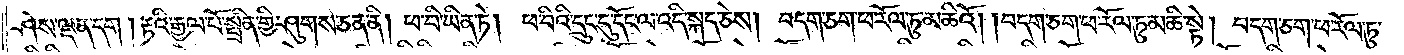ཤེས་ལྡན་དག །རྟའི་རྒྱལ་པོ་སྤྲིན་གྱི་ཤུགས་ཅན་ནི། ཕ་བི་ཡིན་ཏེ། ཕ་བིའི་དྲུང་དུ་དོང་ལ་འདི་སྐད་ཅེས། བདག་ཅག་ཕ་རོལ་ཏུ་མཆིའོ། །བདག་ཅག་ཕ་རོལ་ཏུ་མཆི་སྟེ། བདག་ཅག་ཕ་རོལ་ཏུ་
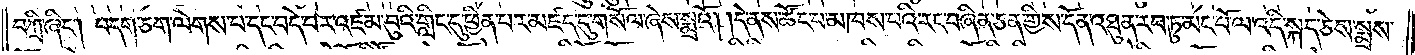བཀྲི་ཞིང༌། བདག་ཅག་ལེགས་པ་དང་བདེ་བར་འཛམ་བུའི་གླིང་དུ་ཕྱིན་པར་མཛད་དུ་གསོལ་ཞེས་སྨྲའོ། །དེ་ནས་ཚོང་པ་མཁས་པའི་རང་བཞིན་ཅན་གྱིས་དོན་འཐུན་རབ་ཏུ་མང་པོ་ལ་འདི་སྐད་ཅེས་སྨྲས་
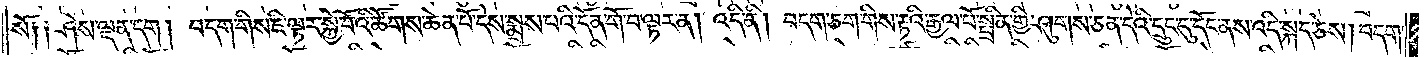སོ༑ ༑ཤེས་ལྡན་དག། བདག་གིས་ཇི་ལྟར་སྐྱེ་བོའི་ཚོགས་ཆེན་པོ་དེས་སྨྲས་པའི་དོན་གོ་བ་ལྟར་ན། འདི་ནི། བདག་ཅག་གིས་རྟའི་རྒྱལ་པོ་སྤྲིན་གྱི་ཤུགས་ཅན་དེའི་དྲུང་དུ་དོང་ནས་འདི་སྐད་ཅེས། བདག་
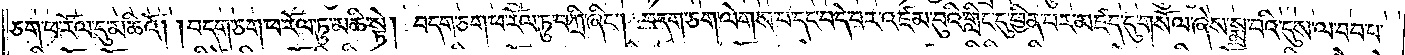ཅག་ཕ་རོལ་དུ་མཆིའོ། །བདག་ཅག་ཕ་རོལ་ཏུ་མཆི་སྟེ། བདག་ཅག་ཕ་རོལ་ཏུ་བཀྲི་ཞིང༌། བདག་ཅག་ལེགས་པ་དང་བདེ་བར་འཛམ་བུའི་གླིང་དུ་ཕྱིན་པར་མཛད་དུ་གསོལ་ཞེས་སྨྲ་བའི་དུས་ལ་བབ་པ་
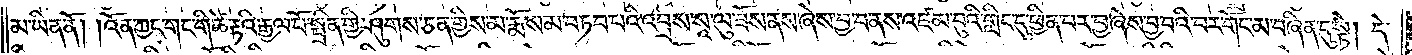མ་ཡིན་ནོ། །འོན་ཀྱང་གང་གི་ཚེ་རྟའི་རྒྱལ་པོ་སྤྲིན་གྱི་ཤུགས་ཅན་གྱིས་མ་རྨོས་མ་བཏབ་པའི་འབྲས་སཱ་ལུ་ཟོས་ནས་ཞེས་བྱ་བ་ནས་འཛམ་བུའི་གླིང་དུ་ཕྱིན་པར་བྱ་ཞེས་བྱ་བའི་བར་གོང་མ་བཞིན་དུ་སྟེ། དེ་
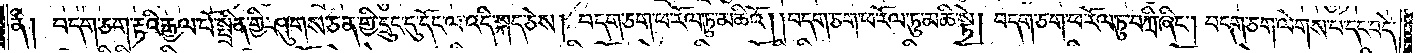ནི། བདག་ཅག་རྟའི་རྒྱལ་པོ་སྤྲིན་གྱི་ཤུགས་ཅན་གྱི་དྲུང་དུ་དོང་ལ་འདི་སྐད་ཅེས། བདག་ཅག་ཕ་རོལ་ཏུ་མཆིའོ། །བདག་ཅག་ཕ་རོལ་ཏུ་མཆི་སྟེ། བདག་ཅག་ཕ་རོལ་ཏུ་བཀྲི་ཞིང༌། བདག་ཅག་ལེགས་པ་དང་བདེ་
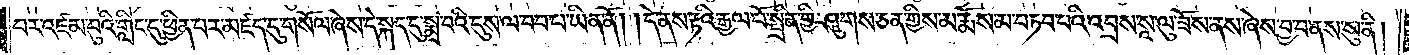བར་འཛམ་བུའི་གླིང་དུ་ཕྱིན་པར་མཛད་དུ་གསོལ་ཞེས་དེ་སྐད་དུ་སྨྲ་བའི་དུས་ལ་བབ་པ་ཡིན་ནོ། །དེ་ནས་རྟའི་རྒྱལ་པོ་སྤྲིན་གྱི་ཤུགས་ཅན་གྱིས་མ་རྨོས་མ་བཏབ་པའི་འབྲས་སཱ་ལུ་ཟོས་ནས་ཞེས་བྱ་བ་ནས་སུ་ནི།
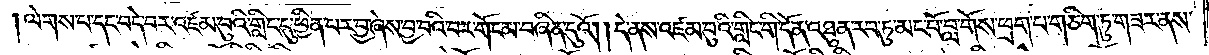ལེགས་པ་དང་བདེ་བར་འཛམ་བུའི་གླིང་དུ་ཕྱིན་པར་བྱ་ཞེས་བྱ་བའི་བར་གོང་མ་བཞིན་དུའོ། །དེ་ནས་འཛམ་བུའི་གླིང་གི་དོན་འཐུན་རབ་ཏུ་མང་པོ་བླ་གོས་ཕྲག་པ་གཅིག་ཏུ་གཟར་ནས་
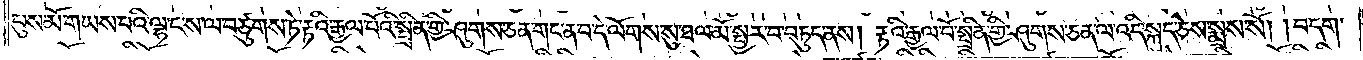པུས་མོ་གཡས་པའི་ལྷ་ང་ས་ལ་བཙུགས་ཏེ་རྟའི་རྒྱལ་པོའི་སྤྲིན་གྱི་ཤུགས་ཅན་གང་ན་བ་དེ་ལོགས་སུ་ཐལ་མོ་སྦྱར་བ་བཏུད་ནས། རྟའི་རྒྱལ་པོ་སྤྲིན་གྱི་ཤུགས་ཅན་ལ་འདི་སྐད་ཅེས་སྨྲས་སོ། །བདག་
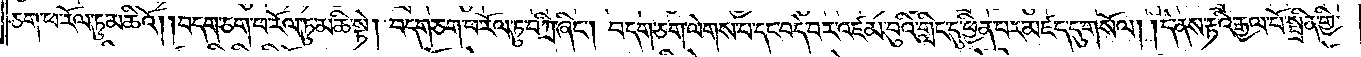ཅག་ཕ་རོལ་ཏུ་མཆིའོ། །བདག་ཅག་ཕ་རོལ་ཏུ་མཆི་སྟེ། བདག་ཅག་ཕ་རོལ་ཏུ་བཀྲི་ཞིང༌། བདག་ཅག་ལེགས་པ་དང་བདེ་བར་འཛམ་བུའི་གླིང་དུ་ཕྱིན་པར་མཛད་དུ་གསོལ། །དེ་ནས་རྟའི་རྒྱལ་པོ་སྤྲིན་གྱི་
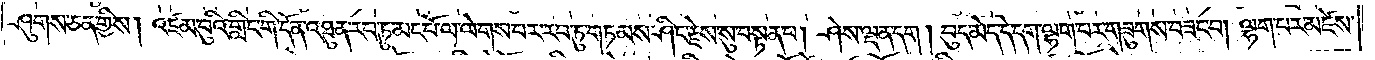ཤུགས་ཅན་གྱིས། འཛམ་བུའི་གླིང་གི་དོན་འཐུན་རབ་ཏུ་མང་པོ་ལ་ལེགས་པར་རབ་ཏུ་གཏམས་ཤིང་རྗེས་སུ་བསྟན་པ། ཤེས་ལྡན་དག །བུད་མེད་དེ་དག་ལྷག་པར་གཟུགས་བཟང་བ། ལྷག་པར་མཛེས་
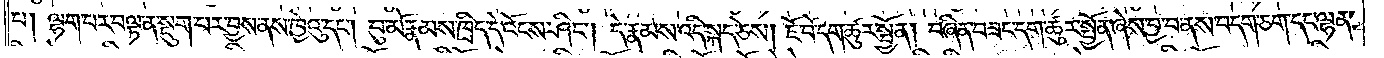པ། ལྷག་པར་བལྟ་ན་སྡུག་པར་བྱས་ན་ཁྱེའུ་དང༌། བུ་མོ་རྣམས་ཁྲིད་དེ་འོངས་ཤིང༌། དེ་རྣམས་འདི་སྐད་ཅེས། ཇོ་བོ་དག་ཚུར་སྤྱོན། བཞིན་བཟང་དག་ཚུར་སྤྱོན་ཞེས་བྱ་བ་ནས་བདག་ཅག་དང་ལྷན་
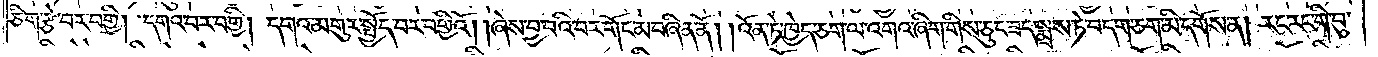ཅིག་རྩེ་བར་བགྱི། དགའ་བར་བགྱི། དགའ་མགུར་སྤྱོད་བར་བགྱིའོ། །ཞེས་བྱ་བའི་བར་གོང་མ་བཞིན་ནོ། །འོན་ཏེ་ཁྱེད་ཅག་ལ་འགའ་ཞིག་གིས་ཅུང་ཟད་སྨྲས་ཏེ་བདག་ཅག་མི་དགོས་ན། རང་རང་གི་བུ་
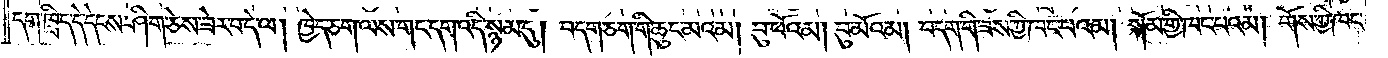དག་ཁྲིད་དེ་དེངས་ཤིག་ཅེས་ཟེར་བ་དེ་ལ། ཁྱེད་ཅག་ལས་གང་དག་འདི་སྙམ་དུ། བདག་ཅག་གི་ཆུང་མའམ། བུ་ཕོའམ། བོ་མོའམ། བདག་གི་ཟས་ཀྱི་ཁང་པའམ། སྐོམ་གྱི་ཁང་པའམ། གོས་ཀྱི་ཁང་
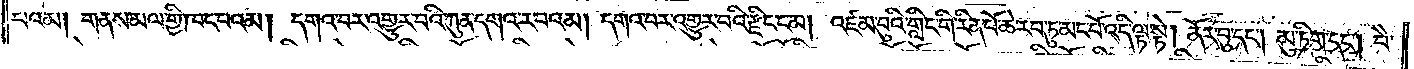པའམ། གནས་མལ་གྱི་ཁང་པའམ། དགའ་བར་འགྱུར་བའི་ཀུན་དགའ་ར་བའམ། དགའ་བར་འགྱུར་བའི་རྫིང་ངམ། འཛམ་བུའི་གླིང་གི་རིན་པོ་ཆེ་རབ་ཏུ་མང་པོ་འདི་ལྟ་སྟེ། ནོར་བུ་དང༌། མུ་ཏིག་དང༌། བཻ་
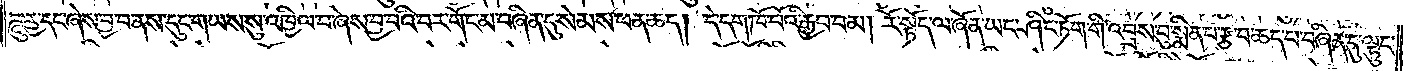ཌཱུརྱ་དང་ཞེས་བྱ་བ་ནས་དུང་གཡས་སུ་འཁྱིལ་བ་ཞེས་བྱ་བའི་བར་གོང་མ་བཞིན་དུ་སེམས་ཕན་ཆད། དེ་དག་ཁོ་བོའི་རྒྱབ་བམ། རོ་སྟོད་ལ་ཞོན་ཡང་ཤིང་ཏོག་གི་འབྲས་བུ་སྨིན་པ་རྩ་བ་ཆད་པ་བཞིན་དུ་ལྟུང་
